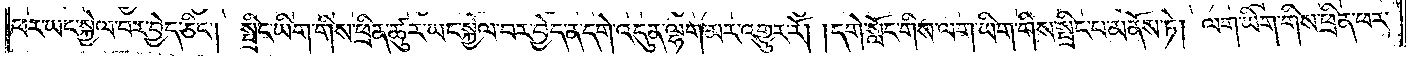ཕར་ཡང་སྐྱེལ་བར་བྱེད་ཅིང༌། སྤྲིང་ཡིག་གིས་ཕྲིན་ཚུར་ཡང་སྐྱེལ་བར་བྱེད་ན་དགེ་འདུན་ལྷག་མར་འགྱུར་རོ། །དགེ་སློང་གིས་ལག་ཡིག་གིས་སྤྲིང་པ་མནོས་ཏེ། ལག་ཡིག་གིས་ཕྲིན་ཕར་
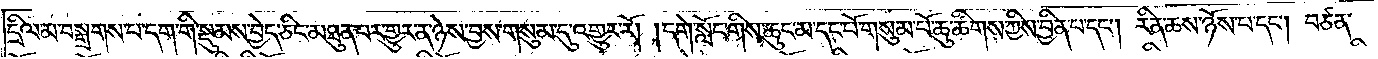དྲིལ་མ་བསྒྲགས་པ་དག་གི་སྡུམས་བྱེད་ཅིང་མཐུན་པར་གྱུར་ན་ཉེས་བྱས་གསུམ་དུ་འགྱུར་རོ། །དགེ་སློང་གིས་ཆུང་མ་དང་པོ་གསུམ་པོ་ཆུ་ཚིགས་ཀྱིས་བྱིན་པ་དང༌། རིན་ཆས་ཉོས་པ་དང༌། བཙན་
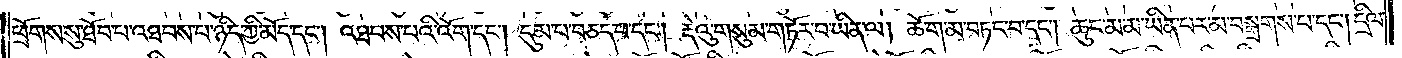ཕྲོགས་སུ་ཐོབ་པ་འཐབས་པ་ཉིད་ཀྱི་མོད་དང༌། འཐབས་པའི་འོག་དང༌། དུམ་པ་བཅད་པ་དང༌། རྡེའུ་གསུམ་གཏོར་བ་ཡིན་ལ། ཆོ་ག་མ་བཏང་བ་དང༌། ཆུང་མ་མ་ཡིན་པར་མ་བསྒྲགས་པ་དང༌། དྲིལ་
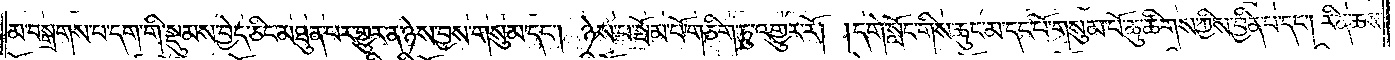མ་བསྒྲགས་པ་དག་གི་སྡུམས་བྱེད་ཅིང་མཐུན་པར་གྱུར་ན་ཉེས་བྱས་གསུམ་དང༌། ཉེས་པ་སྦོམ་པོ་གཅིག་ཏུ་འགྱུར་རོ། །དགེ་སློང་གིས་ཆུང་མ་དང་པོ་གསུམ་པོ་ཆུ་ཚིགས་ཀྱིས་བྱིན་པ་དང༌། རིན་ཆས་
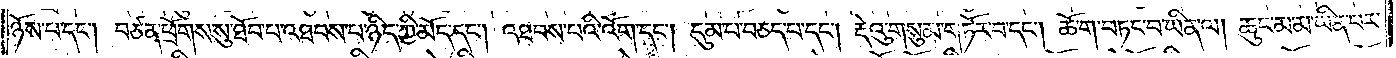ཉོས་པ་དང༌། བཙན་ཕྲོགས་སུ་ཐོབ་པ་འཐབས་པ་ཉིད་ཀྱི་མོད་དང༌། འཐབས་པའི་འོག་དང༌། དུམ་པ་བཅད་པ་དང༌། རྡེའུ་གསུམ་གཏོར་བ་དང༌། ཆོ་ག་བཏང་བ་ཡིན་ལ། ཆུང་མ་མ་ཡིན་པར་
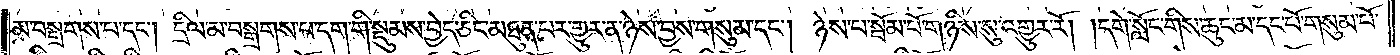མ་བསྒྲགས་པ་དང༌། དྲིལ་མ་བསྒྲགས་པ་དག་གི་སྡུམས་བྱེད་ཅིང་མཐུན་པར་གྱུར་ན་ཉེས་བྱས་གསུམ་དང༌། ཉེས་པ་སྦོམ་པོ་གཉིས་སུ་འགྱུར་རོ། །དགེ་སློང་གིས་ཆུང་མ་དང་པོ་གསུམ་པོ་
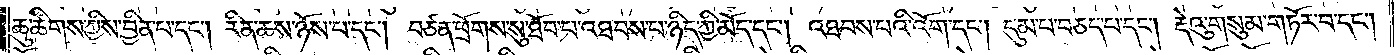ཆུ་ཚིགས་ཀྱིས་བྱིན་པ་དང༌། རིན་ཆས་ཉོས་པ་དང༌། བཙན་ཕྲོགས་སུ་ཐོབ་པ་འཐབས་པ་ཉིད་ཀྱི་མོད་དང༌། འཐབས་པའི་འོག་དང༌། དུམ་པ་བཅད་པ་དང༌། རྡེའུ་གསུམ་གཏོར་བ་དང༌།
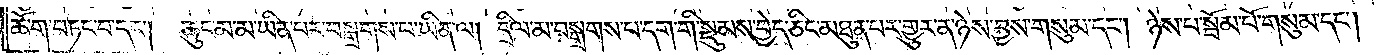ཆོ་ག་བཏང་བ་དང༌།  ཆུང་མ་མ་ཡིན་པར་བསྒྲགས་པ་ཡིན་ལ། དྲིལ་མ་བསྒྲགས་པ་དག་གི་སྡུམས་བྱེད་ཅིང་མཐུན་པར་གྱུར་ན་ཉེས་བྱས་གསུམ་དང༌། ཉེས་པ་སྦོམ་པོ་གསུམ་དང༌།
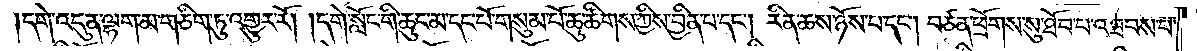དགེ་འདུན་ལྷག་མ་གཅིག་ཏུ་འགྱུར་རོ། །དགེ་སློང་གི་ཆུང་མ་དང་པོ་གསུམ་པོ་ཆུ་ཚིགས་ཀྱིས་བྱིན་པ་དང༌། རིན་ཆས་ཉོས་པ་དང༌། བཙན་ཕྲོགས་སུ་ཐོབ་པ་འཐབས་པ་
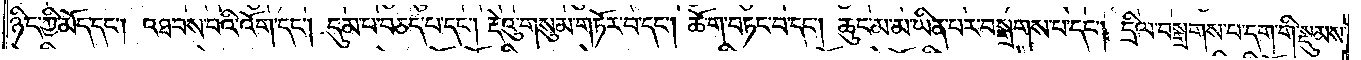ཉིད་ཀྱི་མོད་དང༌། འཐབས་པའི་འོག་དང༌། དུམ་པ་བཅད་པ་དང༌། རྡེའུ་གསུམ་གཏོར་བ་དང༌། ཆོ་ག་བཏང་བ་དང༌། ཆུང་མ་མ་ཡིན་པར་བསྒྲགས་པ་དང༌། དྲིལ་བསྒྲགས་པ་དག་གི་སྡུམས་
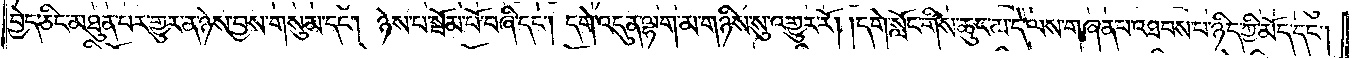བྱེད་ཅིང་མཐུན་པར་གྱུར་ན་ཉེས་བྱས་གསུམ་དང༌། ཉེས་པ་སྦོམ་པོ་བཞི་དང༌། དགེ་འདུན་ལྷག་མ་གཉིས་སུ་འགྱུར་རོ། །དགེ་སློང་གིས་ཆུང་མ་དེ་ལས་གཞན་པ་འཐབས་པ་ཉིད་ཀྱི་མོད་དང༌།
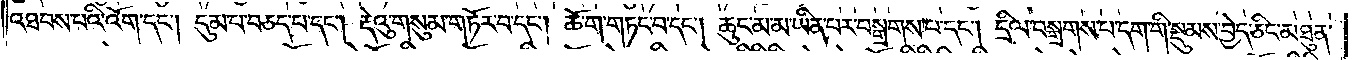འཐབས་པའི་འོག་དང༌། དུམ་པ་བཅད་པ་དང༌། རྡེའུ་གསུམ་གཏོར་བ་དང༌། ཆོ་ག་གཏང་བ་དང༌། ཆུང་མ་མ་ཡིན་པར་བསྒྲགས་པ་དང༌། དྲིལ་བསྒྲགས་པ་དག་གི་སྡུམས་བྱེད་ཅིང་མཐུན་
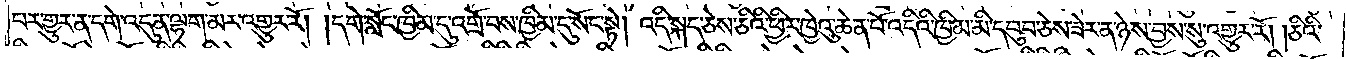པར་གྱུར་ན་དགེ་འདུན་ལྷག་མར་འགྱུར་རོ། །དགེ་སློང་ཁྱིམ་དུ་འགྲོ་བས་ཁྱིམ་དུ་སོང་སྟེ། འདི་སྐད་ཅེས་ཅིའི་ཕྱིར་ཁྱེའུ་ཆེན་པོ་འདིའི་ཁྱིམ་མི་དབུབ་ཅེས་ཟེར་ན་ཉེས་བྱས་སུ་འགྱུར་རོ། །ཅིའི་
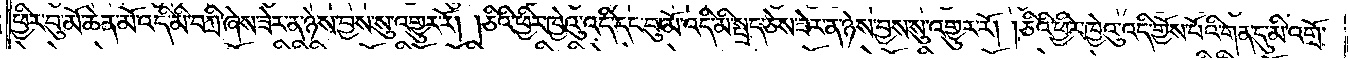ཕྱིར་བུ་མོ་ཆེན་མོ་འདི་མི་བཀྲི་ཞེས་ཟེར་ན་ཉེས་བྱས་སུ་འགྱུར་རོ། །ཅིའི་ཕྱིར་ཁྱེའུ་འདི་དང་བུ་མོ་འདི་མི་སྤྲད་ཅེས་ཟེར་ན་ཉེས་བྱས་སུ་འགྱུར་རོ། །ཅིའི་ཕྱིར་ཁྱེའུ་འདི་གྱོས་པོའི་གན་དུ་མི་འགྲོ་
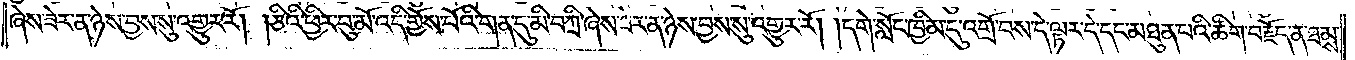ཞེས་ཟེར་ན་ཉེས་བྱས་སུ་འགྱུར་རོ། །ཅིའི་ཕྱིར་བུ་མོ་འདི་གྱོས་པོའི་གན་དུ་མི་བཀྲི་ཞེས་ཟེར་ན་ཉེས་བྱས་སུ་འགྱུར་རོ། །དགེ་སློང་ཁྱིམ་དུ་འགྲོ་བས་དེ་ལྟར་དེ་དང་མཐུན་པའི་ཚིག་བརྗོད་ན་ཐམས་
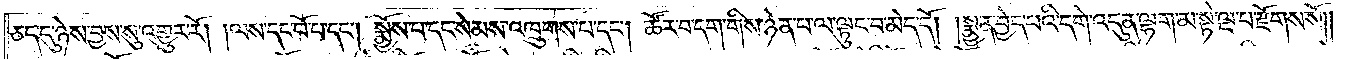ཅད་དུ་ཉེས་བྱས་སུ་འགྱུར་རོ། །ལས་དང་པོ་པ་དང༌། སྨྱོས་པ་དང་སེམས་འཁྲུགས་པ་དང༌། ཚོར་བ་དག་གིས་ཉེན་པ་ལ་ལྟུང་བ་མེད་དོ། །སྨྱན་བྱེད་པའི་དགེ་འདུན་ལྷག་མ་སྟེ་ལྔ་པ་རྫོགས་སོ༎
